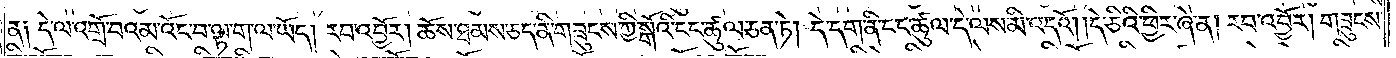ན༑ དེ་ལ་འགྲོ་བའམ་འོང་བ་ལྟ་ག་ལ་ཡོད། རབ་འབྱོར། ཆོས་ཐམས་ཅད་ནི་གཟུངས་ཀྱི་སྒོའི་ངང་ཚུལ་ཅན་ཏེ། དེ་དག་ནི་ངང་ཚུལ་དེ་ལས་མི་འདའོ། །དེ་ཅིའི་ཕྱིར་ཞེ་ན། རབ་འབྱོར། གཟུངས་
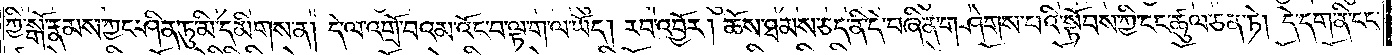ཀྱི་སྒོ་རྣམས་ཀྱང་ཤིན་ཏུ་མི་དམིགས་ན། དེ་ལ་འགྲོ་བའམ་འོང་བ་ལྟ་ག་ལ་ཡོད། རབ་འབྱོར། ཆོས་ཐམས་ཅད་ནི་དེ་བཞིན་གཤེགས་པའི་སྟོབས་ཀྱི་ངང་ཚུལ་ཅན་ཏེ། དེ་དག་ནི་ངང་
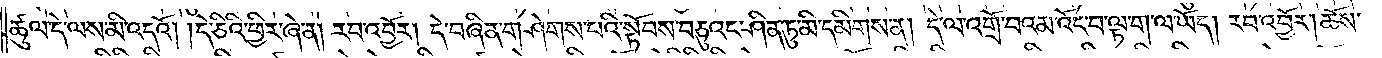ཚུལ་དེ་ལས་མི་འདའོ། །དེ་ཅིའི་ཕྱིར་ཞེ་ན། རབ་འབྱོར། དེ་བཞིན་གཤེགས་པའི་སྟོབས་བཅུའང་ཤིན་ཏུ་མི་དམིགས་ན། དེ་ལ་འགྲོ་བའམ་འོང་བ་ལྟ་ག་ལ་ཡོད། རབ་འབྱོར། ཆོས་
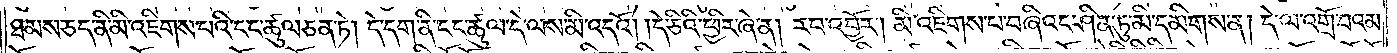ཐམས་ཅད་ནི་མི་འཇིགས་པའི་ངང་ཚུལ་ཅན་ཏེ། དེ་དག་ནི་ངང་ཚུལ་དེ་ལས་མི་འདའོ། །དེ་ཅིའི་ཕྱིར་ཞེ་ན། རབ་འབྱོར། མི་འཇིགས་པ་བཞིའང་ཤིན་ཏུ་མི་དམིགས་ན། དེ་ལ་འགྲོ་བའམ་
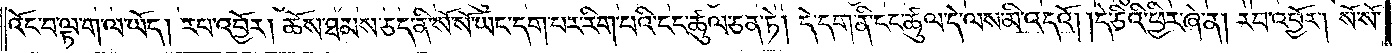འོང་བ་ལྟ་ག་ལ་ཡོད། རབ་འབྱོར། ཆོས་ཐམས་ཅད་ནི་སོ་སོ་ཡང་དག་པར་རིག་པའི་ངང་ཚུལ་ཅན་ཏེ། དེ་དག་ནི་ངང་ཚུལ་དེ་ལས་མི་འདའོ། །དེ་ཅིའི་ཕྱིར་ཞེ་ན། རབ་འབྱོར། སོ་སོ་
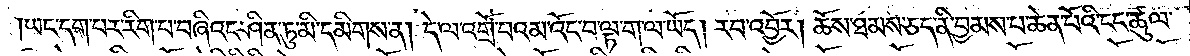ཡང་དག་པར་རིག་པ་བཞིའང་ཤིན་ཏུ་མི་དམིགས་ན། དེ་ལ་འགྲོ་བའམ་འོང་བ་ལྟ་ག་ལ་ཡོད། རབ་འབྱོར། ཆོས་ཐམས་ཅད་ནི་བྱམས་པ་ཆེན་པོའི་ངང་ཚུལ་
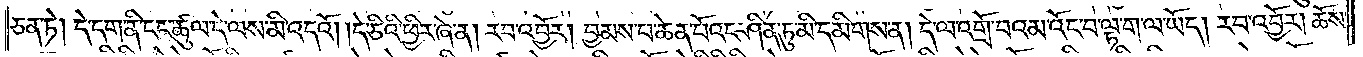ཅན་ཏེ། དེ་དག་ནི་ངང་ཚུལ་དེ་ལས་མི་འདའོ། །དེ་ཅིའི་ཕྱིར་ཞེ་ན། རབ་འབྱོར། བྱམས་པ་ཆེན་པོའང་ཤིན་ཏུ་མི་དམིགས་ན། དེ་ལ་འགྲོ་བའམ་འོང་བ་ལྟ་ག་ལ་ཡོད། རབ་འབྱོར། ཆོས་
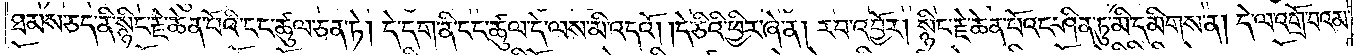ཐམས་ཅད་ནི་སྙིང་རྗེ་ཆེན་པོའི་ངང་ཚུལ་ཅན་ཏེ། དེ་དག་ནི་ངང་ཚུལ་དེ་ལས་མི་འདའོ། །དེ་ཅིའི་ཕྱིར་ཞེ་ན། རབ་འབྱོར། སྙིང་རྗེ་ཆེན་པོའང་ཤིན་ཏུ་མི་དམིགས་ན། དེ་ལ་འགྲོ་བའམ་
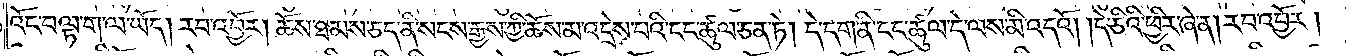འོང་བ་ལྟ་ག་ལ་ཡོད། རབ་འབྱོར། ཆོས་ཐམས་ཅད་ནི་སངས་རྒྱས་ཀྱི་ཆོས་མ་འདྲེས་པའི་ངང་ཚུལ་ཅན་ཏེ། དེ་དག་ནི་ངང་ཚུལ་དེ་ལས་མི་འདའོ། །དེ་ཅིའི་ཕྱིར་ཞེ་ན། རབ་འབྱོར།
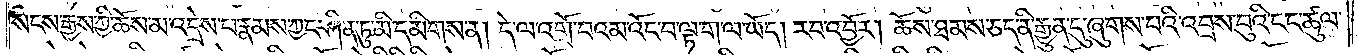སངས་རྒྱས་ཀྱི་ཆོས་མ་འདྲེས་པ་རྣམས་ཀྱང་ཤིན་ཏུ་མི་དམིགས་ན། དེ་ལ་འགྲོ་བའམ་འོང་བ་ལྟ་ག་ལ་ཡོད། རབ་འབྱོར། ཆོས་ཐམས་ཅད་ནི་རྒྱུན་དུ་ཞུགས་པའི་འབྲས་བུའི་ངང་ཚུལ་
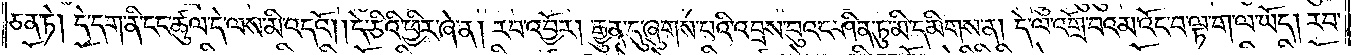ཅན་ཏེ། དེ་དག་ནི་ངང་ཚུལ་དེ་ལས་མི་འདའོ། །དེ་ཅིའི་ཕྱིར་ཞེ་ན། རབ་འབྱོར། རྒྱུན་དུ་ཞུགས་པའི་འབྲས་བུའང་ཤིན་ཏུ་མི་དམིགས་ན། དེ་ལ་འགྲོ་བའམ་འོང་བ་ལྟ་ག་ལ་ཡོད། རབ་
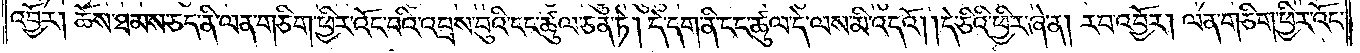འབྱོར། ཆོས་ཐམས་ཅད་ནི་ལན་ཅིག་ཕྱིར་འོང་བའི་འབྲས་བུའི་ངང་ཚུལ་ཅན་ཏེ། དེ་དག་ནི་ངང་ཚུལ་དེ་ལས་མི་འདའོ། །དེ་ཅིའི་ཕྱིར་ཞེ་ན། རབ་འབྱོར། ལན་གཅིག་ཕྱིར་འོང་
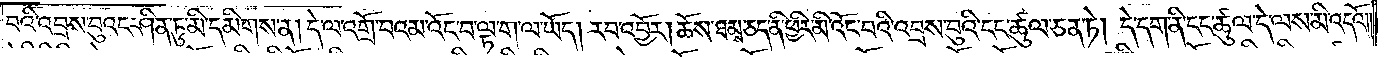བའི་འབྲས་བུའང་ཤིན་ཏུ་མི་དམིགས་ན། དེ་ལ་འགྲོ་བའམ་འོང་བ་ལྟ་ག་ལ་ཡོད། རབ་འབྱོར། ཆོས་ཐམས་ཅད་ནི་ཕྱིར་མི་འོང་བའི་འབྲས་བུའི་ངང་ཚུལ་ཅན་ཏེ། དེ་དག་ནི་ངང་ཚུལ་དེ་ལས་མི་འདའོ། །
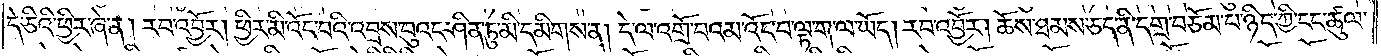དེ་ཅིའི་ཕྱིར་ཞེ་ན། རབ་འབྱོར། ཕྱིར་མི་འོང་བའི་འབྲས་བུའང་ཤིན་ཏུ་མི་དམིགས་ན། དེ་ལ་འགྲོ་བའམ་འོང་བ་ལྟ་ག་ལ་ཡོད། རབ་འབྱོར། ཆོས་ཐམས་ཅད་ནི་དགྲ་བཅོམ་པ་ཉིད་ཀྱི་ངང་ཚུལ་
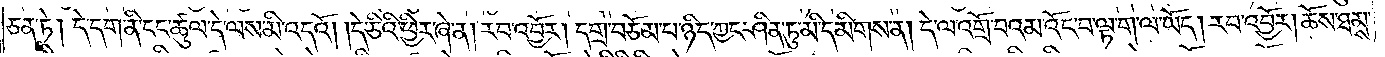ཅན་ཏེ། དེ་དག་ནི་ངང་ཚུལ་དེ་ལས་མི་འདའོ། །དེ་ཅིའི་ཕྱིར་ཞེ་ན། རབ་འབྱོར། དགྲ་བཅོམ་པ་ཉིད་ཀྱང་ཤིན་ཏུ་མི་དམིགས་ན། དེ་ལ་འགྲོ་བའམ་འོང་བ་ལྟ་ག་ལ་ཡོད། རབ་འབྱོར། ཆོས་ཐམས་
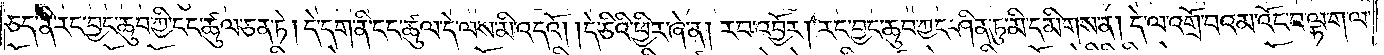ཅད་ནི་རང་བྱང་ཆུབ་ཀྱི་ངང་ཚུལ་ཅན་ཏེ། དེ་དག་ནི་ངང་ཚུལ་དེ་ལས་མི་འདའོ། །དེ་ཅིའི་ཕྱིར་ཞེ་ན། རབ་འབྱོར། རང་བྱང་ཆུབ་ཀྱང་ཤིན་ཏུ་མི་དམིགས་ན། དེ་ལ་འགྲོ་བའམ་འོང་བ་ལྟ་ག་ལ་
